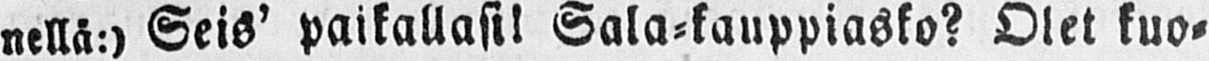nellä:) Seis' paikallasi! Sala-kauppiasko? Olet kuo-
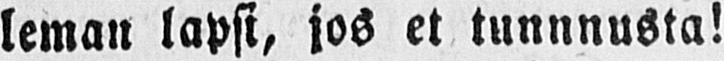leman lapsi, jos et tunnnusta!
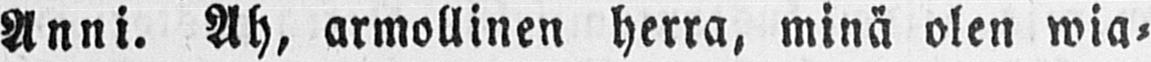Anni. Ah, armollinen herra, minä olen wia-
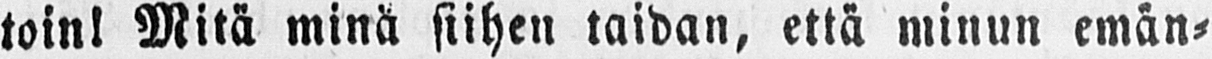toin! Mitä minä siihen taidan, että minun emän-
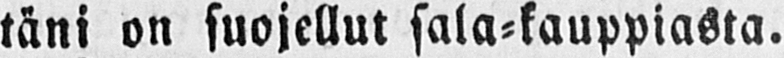täni on suojellut sala-kauppiasta.
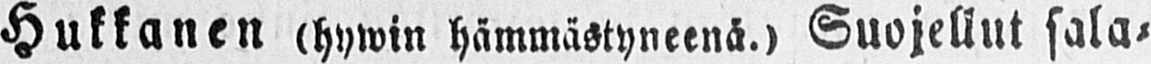Hukkanen (hywin hämmästyneenä.) Suojellut sala-
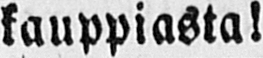kauppiasta!
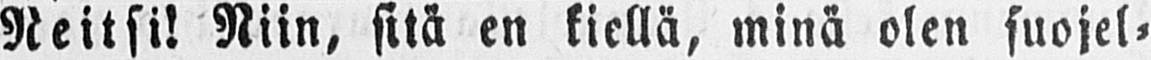Neitsi! Niin, sitä en kiellä, minä olen suojel-
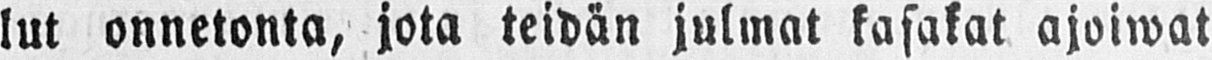lut onnetonta, jota teidän julmat kasakat ajoiwat
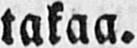takaa.
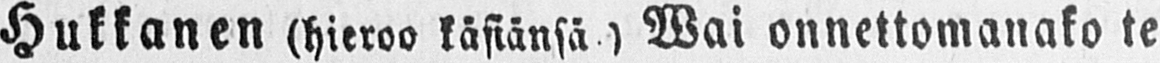Hukkanen (hieroo käsiänsä) Wai onnettomanako te
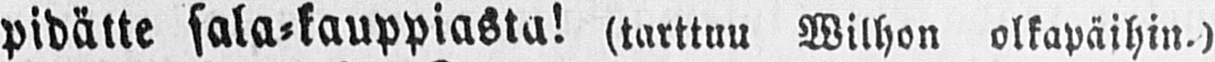pidätte sala-kauppiasta! (tarttuu Wilhon olkapäihin.)
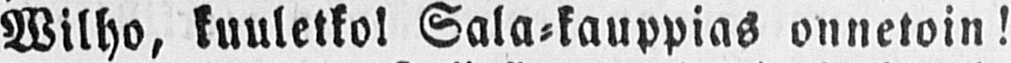Wilho, luuletko! Sala-kauppias onnetoin!
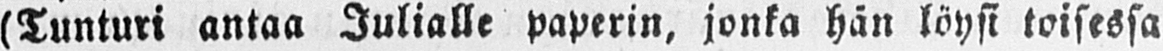(Tunturi antaa Julialle paperin, jonka hän löysi toisessa
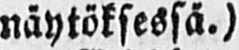näytöksessä.)
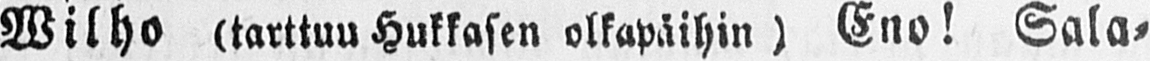Wilho (tarttuu Hukkasen olkapäihin) Eno! Sala-
